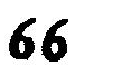66
